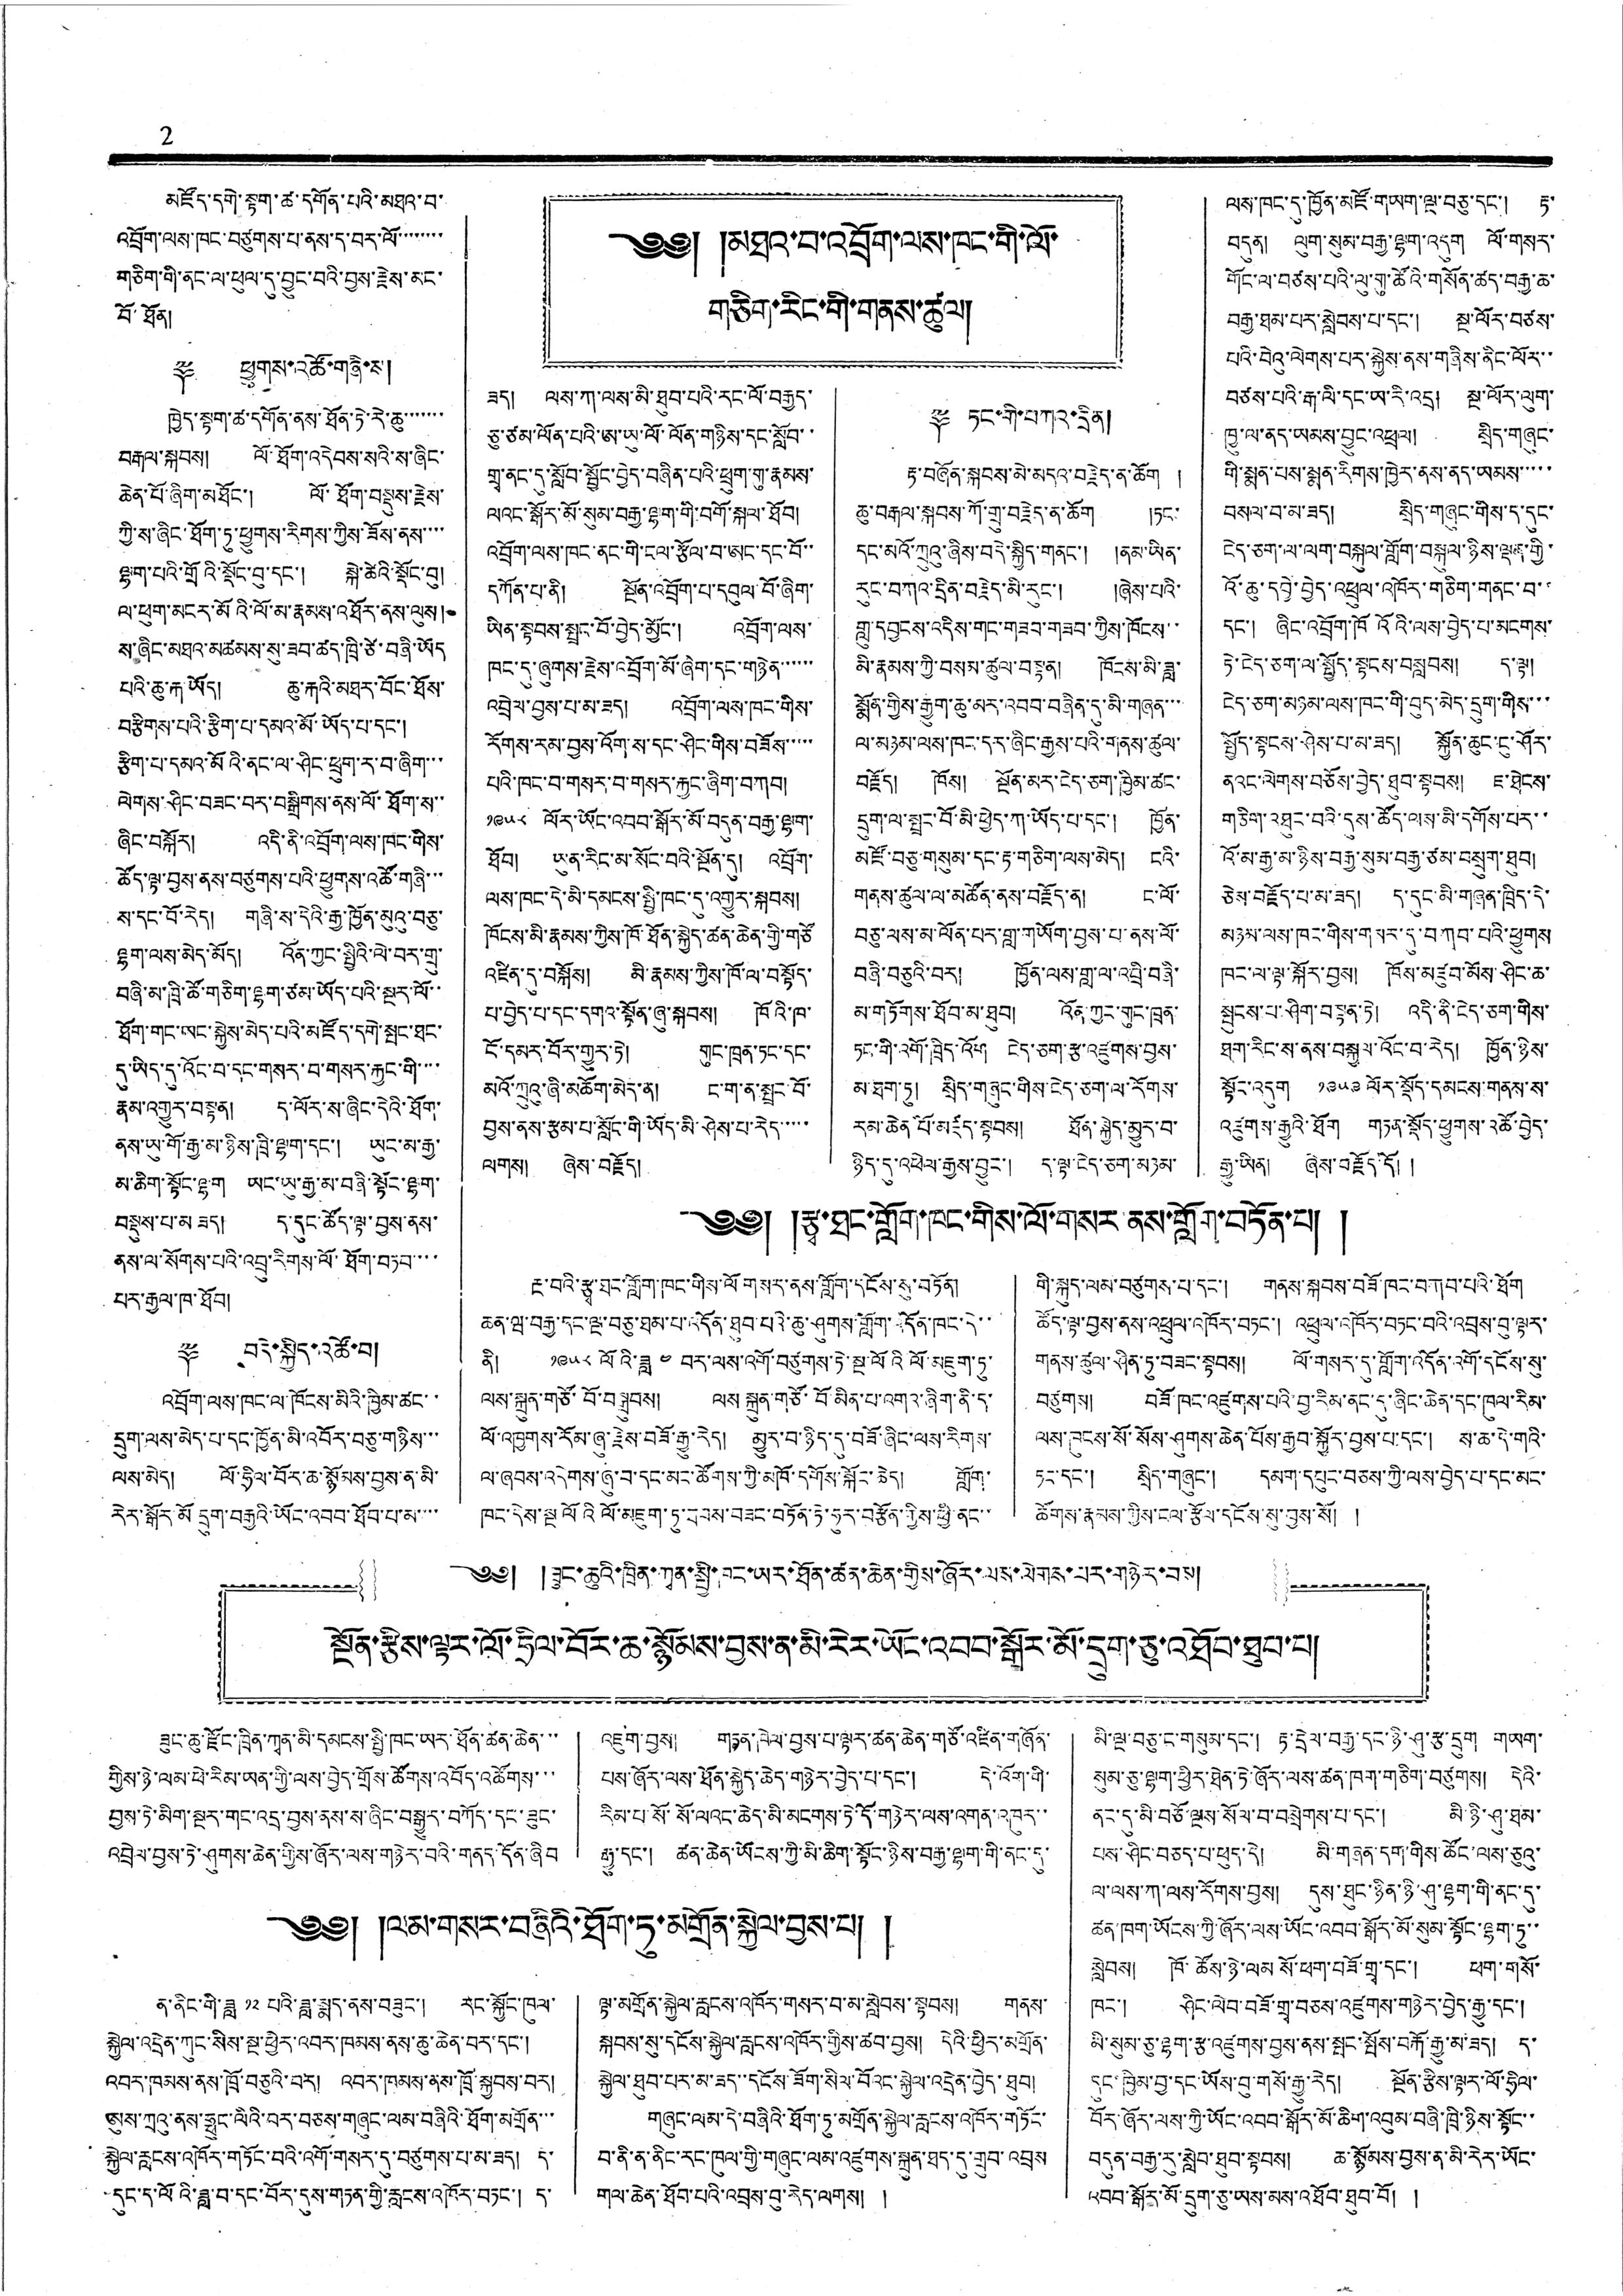2
༄༅། །མཐའ་བ་འབྲོག་ལས་ཁང་གི་ལོ་
གཅིག་རིང་གི་གནས་ཚུལ།
མཛོད་དགེ་སྟག་ཚ་དགོན་པའི་མཐའ་བ་
འབྲོག་ལས་ཁང་བཙུགས་པ་ནས་ད་བར་ལོ་་་་་་་་
གཅིག་གི་ནང་ལ་ཕུལ་དུ་བྱུང་བའི་བྱས་རྗེས་མང་
བོ་ཐོན།
༈ ཕྱུགས་འཚོ་གཞི་ས།
ཁྱེད་སྟག་ཚ་དགོན་ནས་ཐོན་ཏེ་རེ་ཆུ་་་་་་་
བརྒལ་སྐབས། ལོ་ཐོག་འདེབས་སའི་ས་ཞིང་
ཆེན་པོ་ཞིག་མཐོང་། ལོ་ཐོག་བསྡུས་རྗེས་
ཀྱི་ས་ཞིང་ཐོག་ཏུ་ཕྱུགས་རིགས་ཀྱིས་ཟོས་ནས་་་་
ལྷག་པའི་གྲོའི་སྡོང་བུ་དང་། སྐེ་ཚེའི་སྡོང་བུ།
ལ་ཕུག་མངར་མོའི་ལོ་མ་རྣམས་འཐོར་ནས་ལུས།
ས་ཞིང་མཐའ་མཚམས་སུ་ཟབ་ཚད་ཁྲི་ཙེ་བཞི་ཡོད
པའི་ཆུ་རྐ ཡོད། ཆུ་རྐའི་མཐར་བོང་ཐོས་
བརྩིགས་པའི་རྩིག་པ་དམའ་མོ་ཡོད་པ་དང་།
རྩིག་པ་དམའ་མོའི་ནང་ལ་ཤིང་ཕྲུག་ར་བ་ཞིག་་་
ལེགས་ཤིང་བཟང་བར་བསྒྲིགས་ནས་ལོ་ཐོག་ས་་
ཞིང་བསྐོར། འདི་ནི་འབྲོག་ལས་ཁང་གིས་
ཚོད་ལྟ་བྱས་ནས་བཙུགས་པའི་ཕྱུགས་འཚོ་གཞི་་་
ས་དང་བོ་རེད། གཞི་ས་དེའི་རྒྱ་ཁྱོན་མུའུ་བཅུ་
ལྷག་ལས་མེད་མོད། འོན་ཀྱང་སྤྱིའི་ལེ་བར་གྲུ་
བཞི་མ་ཁྲི་ཚོ་གཅིག་ལྷག་ཙམ་ཡོད་པའི་སྔར་ལོ་་
ཐོག་གང་ཡང་སྐྱེས་མེད་པའི་མཛོད་དགེ་སྤང་ཐང་
དུ་ཡིད་དུ་འོང་བ་དང་གསར་བ་གསར་རྐྱང་གི་་་་
རྣམ་འགྱུར་བསྟན། ད་ལོར་ས་ཞིང་དེའི་ཐོག་
ནས་ཡུ་གོ་རྒྱ་མ་ཉིས་ཁྲི་ལྷག་དང་། ཡུང་མ་རྒྱ་
མ་ཆིག་སྟོང་ལྷག ཡང་ཡུ་རྒྱ་མ་བཞི་སྟོང་ལྷག་
བསྡུས་པ་མ ཟད། ད་དུང་ཚོད་ལྟ་བྱས་ནས་
ནས་ལ་སོགས་པའི་འབྲུ་རིགས་ལོ་ཐོག་བཏབ་་་་
པར་རྒྱལ་ཁ་ཐོག།
༈ བདེ་སྐྱིད་འཚོ་བ།
འབྲོག་ལས་ཁང་ལ་ཁོངས་མིའི་ཁྱིམ་ཚང་་
དྲུག་ལས་མེད་པ་དང་ཁྱོན་མི་འབོར་བཅུ་གཉིས་་་
ལས་མེད། ལོ་ཧྲིལ་བོར་ཆ་སྙོམས་བྱས་ན་མི་
རེར་སྒོར་མོ དྲུག་བརྒྱའི་ཡོང་འབབ་ཐོབ་པ་མ་་་་
ཟད། ལས་ཀ་ལས་མི་ཐུབ་པའི་རང་ལོ་བརྒྱད་
ཅུ་ཙམ་ལོན་པའི་ཨ་ཡུ་ལོ་ལོན་གཉིས་དང་སློབ་་
གྲྭ་ནང་དུ་སློབ་སྦྱོང་བྱེད་བཞིན་པའི་ཕྲུག་གུ་རྣམས་
ལའང་སྒོར་མོ་སུམ་བརྒྱ་ལྷག་གི་བགོ་སྐལ་ཐོབ།
འབྲོག་ལས་ཁང་ནང་གི་ངལ་རྩོལ་བ་ཨང་དང་བོ་་
དཀོན་པ་ནི། སྔོན་འབྲོག་པ་དབུལ་བོ་ཞིག་
ཡིན་སྟབས་སྤྲང་བོ་བྱེད་མོང་། འབྲོག་ལས་
ཁང་དུ་ཞུགས་རྗེས་འབྲོག་མོ་ཞིག་དང་གཉེན་་་་་་
འབྲེལ་བྱས་པ་མ་ཟད། འབྲོག་ལས་ཁང་གིས་
རོགས་རམ་བྱས་འོག་ས་དང་ཤིང་གིས་བཟོས་་་་་
པའི་ཁང་བ་གསར་བ་གསར་རྐྱང་ཞིག་བཀབ།
༡༩༥༨ ལོར་ཡོང་འབབ་སྒོར་མོ་བདུན་བརྒྱ་ལྷག་
ཐོབ། ཡུན་རིང་མ་སོང་བའི་སྔོན་དུ། འབྲོག་
ལས་ཁང་དེ་མི་དམངས་སྤྱི་ཁང་དུ་འགྱུར་སྐབས།
ཁོངས་མི་རྣམས་ཀྱིས་ཁོ་ཐོན་སྐྱེད་ཚན་ཆེན་གྱི་གཙོ
འཛིན་དུ་བསྐོས། མི་རྣམས་ཀྱིས་ཁོ་ལ་བསྟོད་
པ་བྱེད་པ་དང་དགའ་སྟོན་ཞུ་སྐབས། ཁོའི་ཁ་
ངོ་དམར་བོར་གྱུར་ཏེ། གུང་ཁྲན་ཏང་དང་
མའོ་ཀྲུའུ་ཞི་མཆོག་མེད་ན། ང་ག་ན་སྤྲང་བོ་
བྱས་ནས་རྩམ་པ་སློང་གི་ཡོད་མི་ཤེས་པ་རེད་་་་་
ལགས། ཞེས་བརྗོད།
༈ ཏང་གི་བཀའ་དྲིན།
རྟ་བཞོན་སྐབས་མེ་མདའ་བརྗེད་ན་ཆོག །
ཆུ་བརྒལ་སྐབས་ཀོ་གྲུ་བརྗེད་ན་ཆོག །ཏང་
དང་མའོ་ཀྲུའུ་ཞིས་བདེ་སྐྱིད་གནང་། ནམ་ཡིན་
རུང་བཀའ་དྲིན་བརྗེད་མི་རུང་། ཞེས་པའི་
གླུ་དབྱངས་འདིས་གང་གཟབ་གཟབ་ཀྱིས་ཀྱིས་ཁོངས་་
མི་རྣམས་ཀྱི་བསམ་ཚུལ་བསྟན། ཁོངས་མི་ཟླ་
སྨོན་གྱིས་རྒྱུག་ཆུ་མར་འབབ་བཞིན་དུ་མི་གཞན་་་
ལ་མཉམ་ལས་ཁང་དར་ཞིང་རྒྱས་པའི་གནས་ཚུལ་
བརྗོད། ཁོས། སྔོན་མར་ངེད་ཅག་ཁྱིམ་ཚང་
དྲུག་ལ་སྤྲང་བོ་མི་ཕྱེད་ཀ་ཡོད་པ་དང་། ཁྱོན་
མཛོ་བཅུ་གསུམ་དང་རྟ་གཅིག་ལས་མེད། ངའི་
གནས་ཚུལ་ལ་མཚོན་ནས་བརྗོད་ན། ང་ལོ་
བཅུ་ལས་མ་ལོན་པར་གླ་གཡོག་བྱས་པ་ནས་ལོ་
བཞི་བཅུའི་བར། ཁྱོན་ལས་གླ་ལ་འབྲི་བཞི་
མ་གཏོགས་ཐོབ་མ་ཐུབ། འོན་ཀྱང་གུང་ཁྲན་
ཏང་གི་འགོ་ཁྲིད་འོག ངེད་ཅག་རྩ་འཛུགས་བྱས་
མ་ཐག་ཏུ། སྲིད་གཞུང་གིས་ངེད་ཅག་ལ་རོགས་
རམ་ཆེན་པོ་མཛད་སྟབས། ཐོན་སྐྱེད་མྱུར་བ་
ཉིད་དུ་འཕེལ་རྒྱས་བྱུང་། ད་ལྟ་ངེད་ཅག་མཉམ་
ལས་ཁང་དུ་ཁྱོན་མཛོ་གཡག་ལྔ་བཅུ་དང་། རྟ་
བདུན། ལུག་སུམ་བརྒྱ་ལྷག་འདུག ལོ་གསར་
གོང་ལ་བཙས་པའི་ལུ་གུ་ཚོའི་གསོན་ཚད་བརྒྱ་ཆ་
བརྒྱ་ཐམ་པར་སླེབས་པ་དང་། སྔ་ལོར་བཙས་
པའི་བེའུ་ལེགས་པར་སྐྱེས་ནས་གཞིས་ནིང་ལོར་་
བཙས་པའི་རྒ་ལི་དང་ཡ་རི་འདྲ། སྔ་ལོར་ལུག་
ཁྱུ་ལ་ནད་ཡམས་བྱུང་འཕྲལ། སྲིད་གཞུང་
གི་སྨན་པས་སྨན་རིགས་ཁྱེར་ནས་ནད་ཡམས་་་་་
བསལ་བ་མ་ཟད། སྲིད་གཞུང་གིས་ད་དུང་
ངེད་ཅག་ལ་ལག་བསྐུལ་གློག་བསྐུལ་ཉིས་ལྡན་གྱི་
འོ་ཆུ་དབྱེ་བྱེད་འཕྲུལ་འཁོར་གཅིག་གནང་བ་་
དང་། ཞིང་འབྲོག་ཁོའོའི་ལས་བྱེད་པ་མངགས་
ཏེ་ངེད་ཅག་ལ་སྤྱོད་སྟངས་བསླབས། ད་ལྟ།
ངེད་ཅག་མཉམ་ལས་ཁང་གི་བུད་མེད་དྲུག་གིས་་་
སྤྱོད་སྟངས་ཤེས་པ་མ་ཟད། སྐྱོན་ཆུང་ངུ་ཤོར་
ནའང་ལེགས་བཅོས་བྱེད་ཐུབ་སྟབས། ཇ་ཐེངས་
གཅིག་འཐུང་བའི་དུས་ཚོད་ལས་མི་དགོས་པར་་
འོ་མ་རྒྱ་མ་ཉིས་བརྒྱ་སུམ་བརྒྱ་ཙམ་བསྲུག་ཐུབ།
ཅེས་བརྗོད་པ་མ་ཟད། ད་དུང་མི་གཞན་ཁྲིད་དེ་
མཉམ་ལས་ཁང་གིས་གསར་དུ་བཀབ་པའི་ཕྱུགས
ཁང་ལ་ལྟ་སྐོར་བྱས། ཁོས་མཛུབ་མོས་ཤིང་ཆ་
སྤུངས་པ་ཤིག་བསྟན་ཏེ། འདི་ནི་ངེད་ཅག་གིས་
ཐག་རིང་ས་ནས་བསྐྱལ་འོང་བ་རེད། ཁྱོན་ཉིས་
སྟོང་འདུག ༡༩༥༩ ལོར་སྡོད་དམངས་གནས་ས་
འཛུགས་རྒྱུའི་ཐོག གཏན་སྡོད་ཕྱུགས་འཚོ་བྱེད་
རྒྱུ་ཡིན། ཞེས་བརྗོད་དོ། །
༄༅། །རྩྭ་ཐང་གློག་ཁང་གིས་ལོ་གསར་ནས་གློག་བཏོན་པ། །
རྔ་བའི་རྩྭ་ཐང་གློག་ཁང་གིས་ལོ གསར་ནས་གློག་དངོས་སུ་བཏོན།
ཆན་ཝ་བརྒྱ་དང་ལྔ་བཅུ་ཐམ་པ་འདོན་ཐུབ་པའི་ཆུ་ཤུགས་གློག་འདོན་ཁང་དེ་་
ནི། ༡༩༥༨ ལོའི་ཟླ ༤ བར་ལས་འགོ་བཙུགས་ཏེ་སྔ་ལོའི་ལོ་མཇུག་ཏུ་
ལས་སྐྲུན་གཙོ་བོ་བསྒྲུབས། ལས སྐྲུན་གཙོ་བོ་མིན་པ་འགའ་ཞིག་ནི་ད་
ལོ་འཁྱགས་རོམ་ཞུ་རྗེས་བཟོ་རྒྱུ་རེད། མྱུར་བ་ཉིད་དུ་བཟོ་ཞིང་ལས་རིགས་
ལ་ཞབས་འདེགས་ཞུ་བ་དང་མང་ཚོགས་ཀྱི་མཁོ་དགོས་སྐོང་ཆེད། གློག་
ཁང་དེས་སྔ ལོའི ལོ་མཇུག་ཏུ་ཐབས་བཟང་བཏོན་ཏེ་ཧུར་བརྩོན་གྱསི་ཕྱི་ནང་་
གི་སྐུད་ལམ་བཙུགས་པ་དང་། གནས་སྐབས་བཟོ་ཁང་བཀབ་པའི་ཐོག
ཚོད་ལྟ་བྱས་ནས་འཕྲུལ་འཁོར་བཏང་། འཕྲུལ་འཁོར་བཏང་བའི་འབྲས་བུ་ལྟར་
གནས་ཚུལ་ཤིན་ཏུ་བཟང་སྟབས། ལོ་གསར་དུ་གློག་འདོན་འགོ་དངོས་སུ་
བཙུགས། བཟོ་ཁང་འཛུགས་པའི་བྱ་རིམ་ནང་དུ་ཞིང་ཆེན་དང་ཁུལ་རིམ་
ལས་ཁུངས་སོ་སོས་ཤུགས་ཆེན་པོས་རྒྱབ་སྐྱོར་བྱས་པ་དང་། ས་ཆ་དེ་གའི་
ཏང་དང་། སྲིད་གཞུང་། དམག་དཔུང་བཅས་ཀྱི་ལས་བྱེད་པ་དང་མང་
ཚོགས་རྣམས་ཀྱིས་ངལ་རྩོལ་དངོས་སུ་བྱས་སོ། །
༄༅། །ཟུང་ཆུའི་ཁྲིན་ཀྭན་སྤྱི་ཁང་ཡར་ཐོན་ཚན་ཆེན་གྱིས་ཞོར་ལས་ལེགས་པར་གཉེར་བས།
སྔོན་རྩིས་ལྟར་ལོ་ཧྲིལ་བོར་ཆ་སྙོམས་བྱས་ན་མི་རེར་ཡོང་འབབ་སྒོར་མོ་དྲུག་ཅུ་འཐོབ་ཐུབ་པ།
ཟུང་ཆུ་རྫོང་ཁྲིན་ཀྭན་མི་དམངས་སྤྱི་ཁང་ཡར་ཐོན་ཚན་ཆེན་་་
གྱིས་ཉེ་ལམ་ཕེ་རིམ་ཡན་གྱི་ལས་བྱེད་གྲོས་ཚོགས་འབོད་འཚོགས་་་
བྱས་ཏེ་མིག་སྔར་གང་འདྲ་བྱས་ནས་ས་ཞིང་བསྒྱུར་བཀོད་དང་ཟུང་
འབྲེལ་བྱས་ཏེ་ཤུགས་ཆེན་གྱིས་ཞོར་ལས་གཉེར་བའི་གནད་དོན་ཞིབ
འཇུག་བྱས། གཏན་ཁེལ་བྱས་པ་ལྟར་ཚན་ཆེན་གཙོ་འཛིན་གཞོན་
པས་ཞོར་ལས་ཐོན་སྐྱེད་ཆེད་གཉེར་བྱེད་པ་དང་། དེ་འོག་གི་
རིམ་པ་སོ་སོ་ལའང་ཆེད་མི་མངགས་ཏེ་དོ་གཉེར་ལས་འགན་འཁུར་་
རྒྱུ་དང་། ཚན་ཆེན་ཡོངས་ཀྱི་མི་ཆིག་སྟོང་ཉིས་བརྒྱ་ལྷག་གི་ནང་དུ་
མི་ལྔ་བཅུ་ང་གསུམ་དང་། རྟ་དྲེལ་བརྒྱ་དང་ཉི་ཤུ་རྩ་དྲུག གཡག་
སུམ་ཅུ་ལྷག་ཕྱིར་ཐེན་ཏེ་ཞོར་ལས་ཚན་ཁག་གཅིག་བཙུགས། དེའི་
ནང་དུ་མི་བཅོ་ལྔས་སོལ་བ་བསྲེགས་པ་དང་། མི་ཉི་ཤུ་ཐམ་
པས་ཤིང་བཅད་པ་ཕུད་དེ། མི་གཞན་དག་གིས་ཚོང་ལས་ཅུའུ་
ལ་ལས་ཀ་ལས་རོགས་བྱས། དུས་ཐུང་ཉིན་ཉི་ཤུ་ལྷག་གི་ནང་དུ་
ཚན་ཁག་ཡོངས་ཀྱི་ཞོར་ལས་ཡོང་འབབ་སྒོར་མོ་སུམ་སྟོང་ལྷག་ཏུ་་
སླེབས། ཁོ་ཚོས་ཉེ་ལམ སོ་ཕག་བཟོ་གྲྭ་དང་། ཕག་གསོ་
ཁང་། ཤིང་ལེབ་བཟོ་གྲྭ་བཅས་འཛུགས་གཉེར་བྱེད་རྒྱུ་དང་།
མི་སུམ་ཅུ་ལྷག་རྩ་འཛུགས་བྱས་ནས་སྤང་སྤོས་བརྐོ་རྒྱུ་མ་ཟད། ད་
དུང་ཁྱིམ་བྱ་དང་ཡོས་བུ་གསོ་རྒྱུ་རེད། སྔོན་རྩིས་ལྟར་ལོ་ཧྲིལ་
བོར་ཞོར་ལས་ཀྱི་ཡོང་འབབ་སྒོར་མོ་ཆིག་འབུམ་བཞི་ཁྲི་ཉིས་སྟོང་་
བདུན་བརྒྱ་རུ་སླེབ་ཐུབ་སྟབས། ཆ་སྙོམས་བྱས་ན་མི་རེར་ཡོང་
འབབ་སྒོར་མོ་དྲུག་ཅུ་ཡས་མས་འཐོབ་ཐུབ་བོ། །
༄༅། །ལམ་གསར་བཞིའི་ཐོག་ཏུ་མགྲོན་སྐྱེལ་བྱས་པ། །
ན་ནིང་གི་ཟླ ༡༢ པའི་ཟླ་སྨད་ནས་བཟུང་། རང་སྐྱོང་ཁུལ་
སྐྱེལ་འདྲེན་ཀུང་སིས་སྔ་ཕྱིར་འབར་ཁམས་ནས་ཆུ་ཆེན་བར་དང་།
འབྲ་ཁམས་ནས་ཁྲོ་བཅུའི་བར། འབར་ཁམས་ནས་ཁྲོ་སྐྱབས་བར།
ཨུས་ཀྲའུ་ནས་ཧྥུང་ལིའི་བར་བཅས་གཞུང་ལམ་བཞིའི་ཐོག་མགྲོན་་་
སྐྱེལ་རླངས་འཁོར་གཏོང་བའི་འགོ་གསར་དུ་བཙུགས་པ་མ་ཟད། ད་
དུང་ད་ལོའི་ཟླ་བ་དང་བོར་དུས་གཏན་གྱི་རླངས་འཁོར་བཏང་། ད་
ལྟ་མགྲོན་སྐྱེལ་རླངས་འཁོར་གསར་བ་མ་སླེབས་སྟབས། གནས་
སྐབས་སུ་དངོས་སྐྱེལ་རླངས་འཁོར་གྱིས་ཚབ་བྱས། དེའི་ཕྱིར་མགྲོན་
སྐྱེལ་ཐུབ་པར་མ་ཟད་་དངོས་ཟོག་སིལ་བོའང་སྐྱེལ་འདྲེན་བྱེད་ཐུབ།
གཞུང་ལམ་དེ་བཞིའི་ཐོག་ཏུ་མགྲོན་སྐྱེལ་རླངས་འཁོར་གཏོང་
བ་ནི་ན་ནིང་རང་ཁུལ་གྱི་གཞུང་ལམ་འཛུགས་སྐྲུན་ཐད་དུ་གྲུབ་འབྲས
གལ་ཆེན་ཐོབ་པའི་འབྲས་བུ་རེད་ལགས། །
